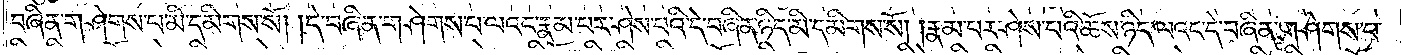བཞིན་གཤེགས་པ་མི་དམིགས་སོ། །དེ་བཞིན་གཤེགས་པ་ལའང་རྣམ་པར་ཤེས་པའི་དེ་བཞིན་ཉིད་མི་དམིགས་སོ། །རྣམ་པར་ཤེས་པའི་ཆོས་ཉིད་ལའང་དེ་བཞིན་གཤེགས་པ་
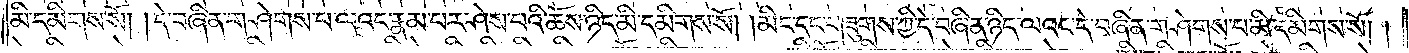མི་དམིགས་སོ། །དེ་བཞིན་གཤེགས་པ་ལའང་རྣམ་པར་ཤེས་པའི་ཆོས་ཉིད་མི་དམིགས་སོ། །མིང་དང་གཟུགས་ཀྱི་དེ་བཞིན་ཉིད་ལའང་དེ་བཞིན་གཤེགས་པ་མི་དམིགས་སོ། །
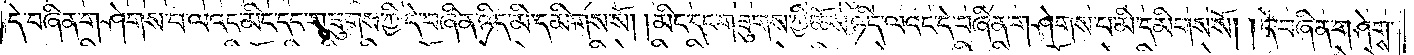དེ་བཞིན་གཤེགས་པ་ལའང་མིང་དང་གཟུགས་ཀྱི་དེ་བཞིན་ཉིད་མི་དམིགས་སོ། །མིང་དང་གཟུགས་ཀྱི་ཆོས་ཉིད་ལའང་དེ་བཞིན་གཤེགས་པ་མི་དམིགས་སོ། །དེ་བཞིན་གཤེགས་
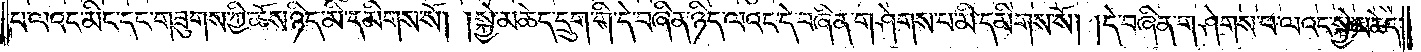པ་ལའང་མིང་དང་གཟུགས་ཀྱི་ཆོས་ཉིད་མི་དམིགས་སོ། །སྐྱེ་མཆེད་དྲུག་གི་དེ་བཞིན་ཉིད་ལའང་དེ་བཞིན་གཤེགས་པ་མི་དམིགས་སོ། །དེ་བཞིན་གཤེགས་པ་ལའང་སྐྱེ་མཆེད་
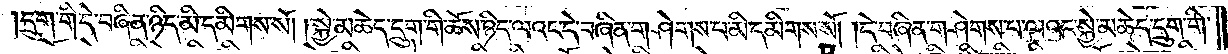དྲུག་གི་དེ་བཞིན་ཉིད་མི་དམིགས་སོ། །སྐྱེ་མཆེད་དྲུག་གི་ཆོས་ཉིད་ལའང་དེ་བཞིན་གཤེགས་པ་མི་དམིགས་སོ། །དེ་བཞིན་གཤེགས་པ་ལའང་སྐྱེ་མཆེད་དྲུག་གི་
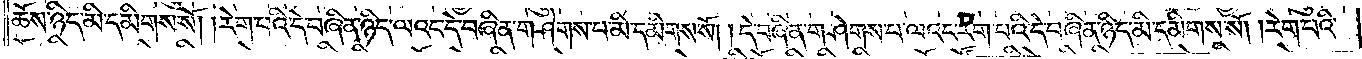ཆོས་ཉིད་མི་དམིགས་སོ། །རེག་པའི་དེ་བཞིན་ཉིད་ལའང་དེ་བཞིན་གཤེགས་པ་མི་དམིགས་སོ། །དེ་བཞིན་གཤེགས་པ་ལའང་རེག་པའི་དེ་བཞིན་ཉིད་མི་དམིགས་སོ། །རེག་པའི་
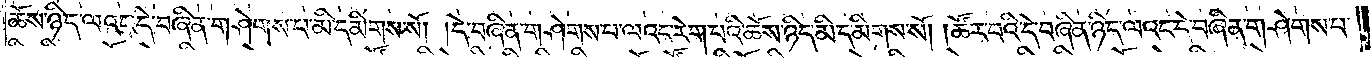ཆོས་ཉིད་ལའང་དེ་བཞིན་གཤེགས་པ་མི་དམིགས་སོ། །དེ་བཞིན་གཤེགས་པ་ལའང་རེག་པའི་ཆོས་ཉིད་མི་དམིགས་སོ། །ཚོར་བའི་དེ་བཞིན་ཉིད་ལའང་དེ་བཞིན་གཤེགས་པ་
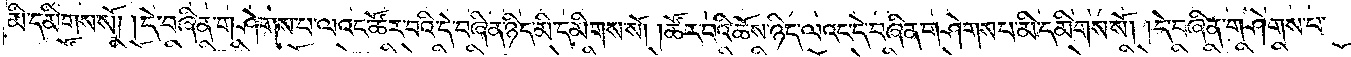མི་དམིགས་སོ། །དེ་བཞིན་གཤེགས་པ་ལའང་ཚོར་བའི་དེ་བཞིན་ཉིད་མི་དམིགས་སོ། །ཚོར་བའི་ཆོས་ཉིད་ལའང་དེ་བཞིན་གཤེགས་པ་མི་དམིགས་སོ། །དེ་བཞིན་གཤེགས་པ་
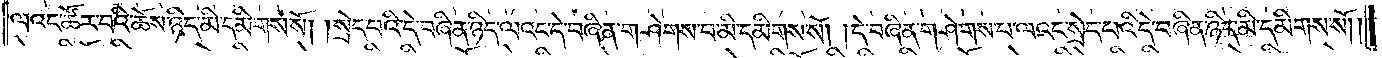ལའང་ཚོར་བའི་ཆོས་ཉིད་མི་དམིགས་སོ། །སྲེད་པའི་དེ་བཞིན་ཉིད་ལའང་དེ་བཞིན་གཤེགས་པ་མི་དམིགས་སོ། །དེ་བཞིན་གཤེགས་པ་ལའང་སྲེད་པའི་དེ་བཞིན་ཉིད་མི་དམིགས་སོ༎
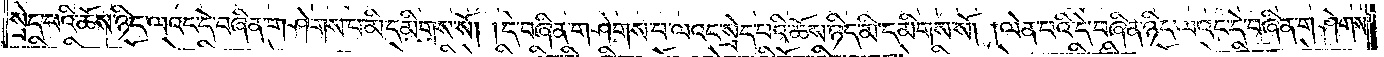སྲེད་པའི་ཆོས་ཉིད་ལའང་དེ་བཞིན་གཤེགས་པ་མི་དམིགས་སོ། །དེ་བཞིན་གཤེགས་པ་ལའང་སྲེད་པའི་ཆོས་ཉིད་མི་དམིགས་སོ། །ལེན་པའི་དེ་བཞིན་ཉིད་ལའང་དེ་བཞིན་གཤེགས་
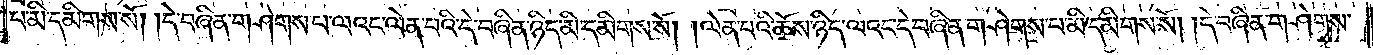པ་མི་དམིགས་སོ། །དེ་བཞིན་གཤེགས་པ་ལའང་ལེན་པའི་དེ་བཞིན་ཉིད་མི་དམིགས་སོ། །ལེན་པའི་ཆོས་ཉིད་ལའང་དེ་བཞིན་གཤེགས་པ་མི་དམིགས་སོ། །དེ་བཞིན་གཤེགས་
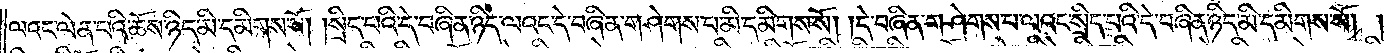ལའང་ལེན་པའི་ཆོས་ཉིད་མི་དམིགས་སོ། །སྲིད་པའི་དེ་བཞིན་ཉིད་ལའང་དེ་བཞིན་གཤེགས་པ་མི་དམིགས་སོ། །དེ་བཞིན་གཤེགས་པ་ལའང་སྲིད་པའི་དེ་བཞིན་ཉིད་མི་དམིགས་སོ། །
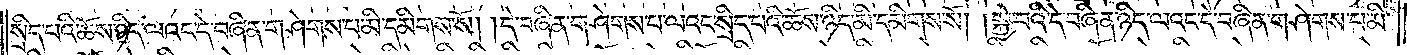སྲིད་པའི་ཆོས་ཉིད་ལའང་དེ་བཞིན་གཤེགས་པ་མི་དམིགས་སོ། །དེ་བཞིན་གཤེགས་པ་ལའང་སྲིད་པའི་ཆོས་ཉིད་མི་དམིགས་སོ། །སྐྱེ་བའི་དེ་བཞིན་ཉིད་ལའང་དེ་བཞིན་གཤེགས་པ་མི་
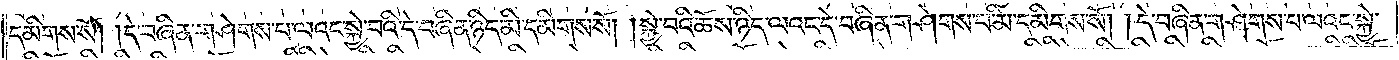དམིགས་སོ། །དེ་བཞིན་གཤེགས་པ་ལའང་སྐྱེ་བའི་དེ་བཞིན་ཉིད་མི་དམིགས་སོ། །སྐྱེ་བའི་ཆོས་ཉིད་ལའང་དེ་བཞིན་གཤེགས་པ་མི་དམིགས་སོ། །དེ་བཞིན་གཤེགས་པ་ལའང་སྐྱེ་
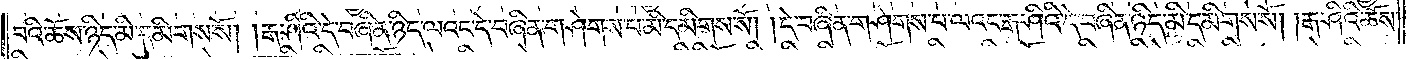བའི་ཆོས་ཉིད་མི་དམིགས་སོ། །རྒ་ཤིའི་དེ་བཞིན་ཉིད་ལའང་དེ་བཞིན་གཤེགས་པ་མི་དམིགས་སོ། །དེ་བཞིན་གཤེགས་པ་ལའང་རྒ་ཤིའི་དེ་བཞིན་ཉིད་མི་དམིགས་སོ། །རྒ་ཤིའི་ཆོས་
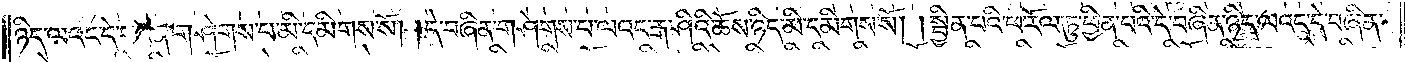ཉིད་ལའང་དེ་བཞིན་གཤེགས་པ་མི་དམིགས་སོ། །དེ་བཞིན་གཤེགས་པ་ལའང་རྒ་ཤིའི་ཆོས་ཉིད་མི་དམིགས་སོ། །སྦྱིན་པའི་ཕ་རོལ་ཏུ་ཕྱིན་པའི་དེ་བཞིན་ཉིད་ལའང་དེ་བཞིན་
